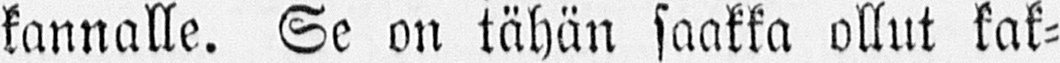kannalle. Se on tähän saakka ollut kak-
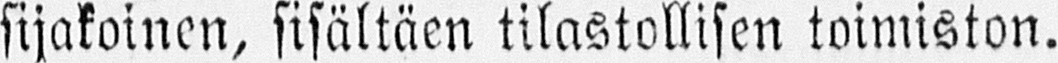sijakoinen, sisältäen tilastollisen toimiston.
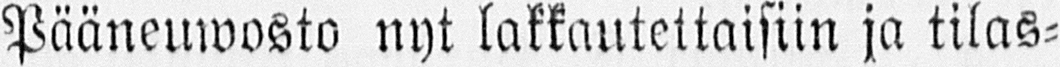Pääneuwosto nyt lakkautettaisiin ja tilas-
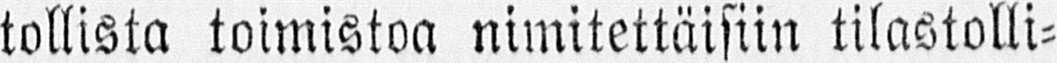tollista toimistoa nimitettäisiin tilastolli-
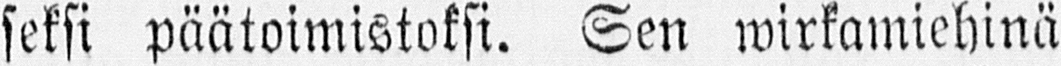seksi päätoimistoksi. Sen wirkamiehinä
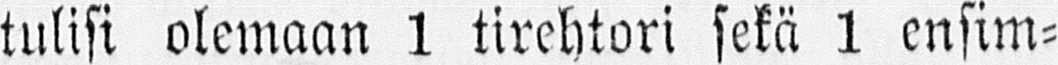tulisi olemaan 1 tirehtori sekä 1 ensim-
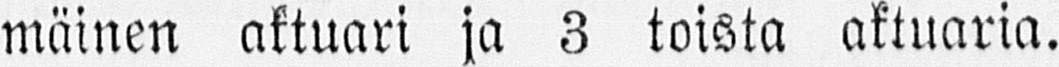mäinen aktuari ja 3 toista aktuaria.
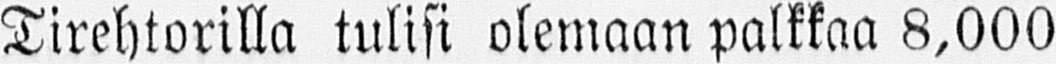Tirehtorilla tulisi olemaan palkkaa 8,000
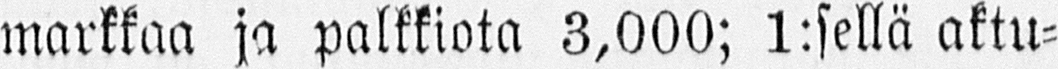markkaa ja palkkiota 3,000; 1:sellä aktu-
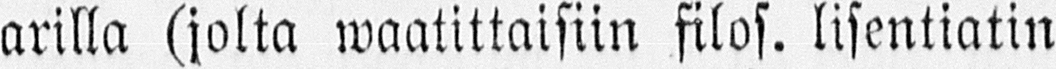arilla (jolta waatittaisiin filos. lisentiatin
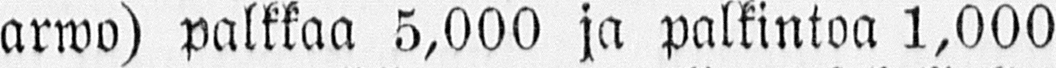arwo) palkkaa 5,000 ja palkintoa 1,000
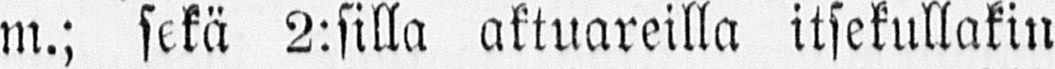m.; sekä 2:silla aktuareilla itsekullakin
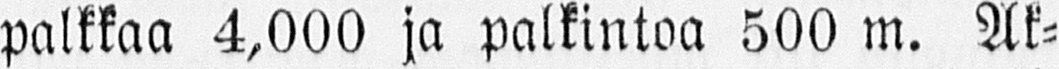palkkaa 4,000 ja palkintoa 500 m. Ak-
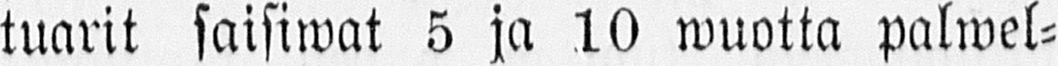tuarit saisiwat 5 ja 10 wuotta palwel-
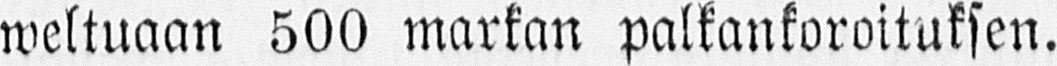weltuaan 500 markan palkankoroituksen.
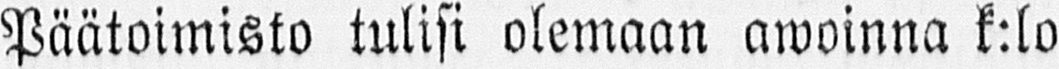Päätoimisto tulisi olemaan awoinna k:lo
